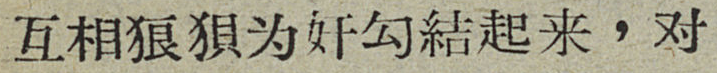互相狼狽为奸勾結起来，对
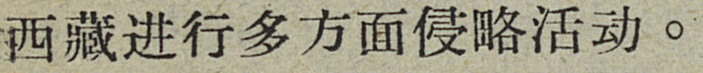西藏进行多方面侵略活动。
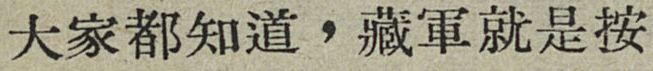大家都知道，藏軍就是按
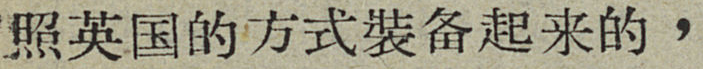照英国的方式装备起来的，
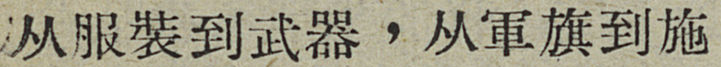从服装到武器，从軍旗到施
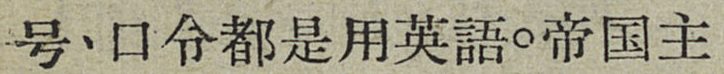号、口令都是用英語。帝国主
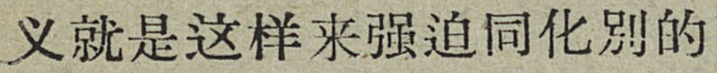义就是这样来强迫同化别的
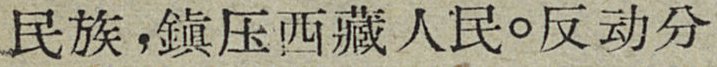民族，鎭压西藏人民。反动分
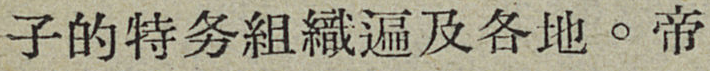子的特务組織遍及各地。帝
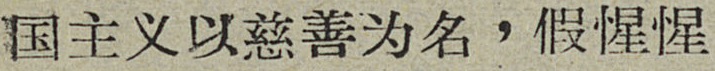国主义以慈善为名，假惺惺
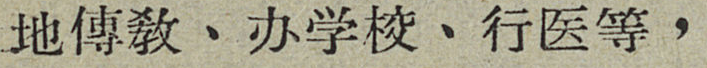地傳敎、办学校、行医等，
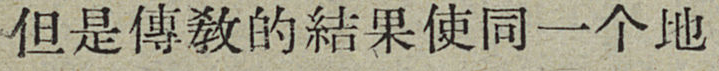但是傳敎的結果使同一个地
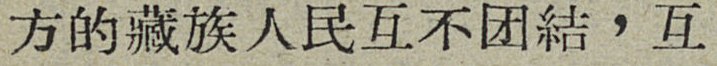方的藏族人民互不团結，互
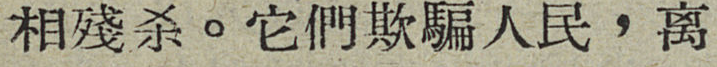相殘杀。它們欺騙人民，离
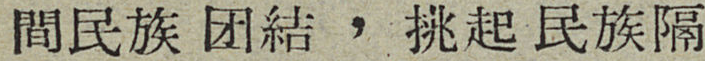間民族团結，挑起民族隔
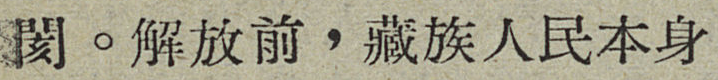閡。解放前，藏族人民本身
